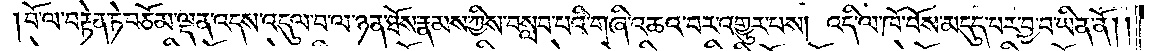བོ་ལ་བརྟེན་ཏེ་བཅོམ་ལྡན་འདས་འདུལ་བ་ལ་ཉན་ཐོས་རྣམས་ཀྱིས་བསླབ་པའི་གཞི་འཆའ་བར་འགྱུར་བས། འདི་ལ་ཁོ་བོས་མདུད་པར་བྱ་བ་ཡིན་ནོ། །
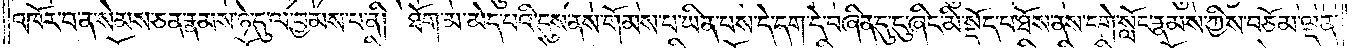འཁོར་བ་ན་སེམས་ཅན་རྣམས་ཉེ་དུ་ལ་བྱམས་པ་ནི། ཐོག་མ་མེད་པའི་དུས་ནས་གོམས་པ་ཡིན་པས་དེ་དག་དེ་བཞིན་དུ་ངུ་ཞིང་མི་སྡོད་པ་ཐོས་ནས་དགེ་སློང་རྣམས་ཀྱིས་བཅོམ་ལྡན་
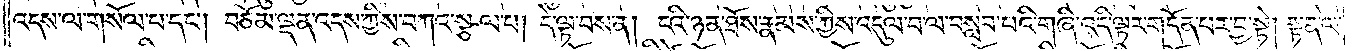འདས་ལ་གསོལ་བ་དང༌། བཅོམ་ལྡན་འདས་ཀྱིས་བཀའ་སྩལ་པ། དེ་ལྟ་བས་ན། ངའི་ཉན་ཐོས་རྣམས་ཀྱིས་འདུལ་བ་ལ་བསླབ་པའི་གཞི་འདི་ལྟར་གདོན་པར་བྱ་སྟེ། སྟན་ལ་
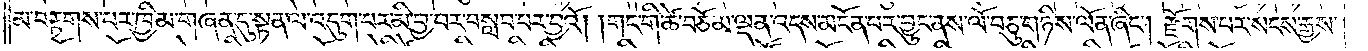མ་བརྟགས་པར་ཁྱིམ་གཞན་དུ་སྟན་ལ་འདུག་པར་མི་བྱ་བར་བསླབ་པར་བྱའོ། །གང་གི་ཚེ་བཅོམ་ལྡན་འདས་མངོན་པར་བྱུང་ནས་ལོ་བཅུ་གཉིས་ལོན་ཞིང༌། རྫོགས་པར་སངས་རྒྱས་
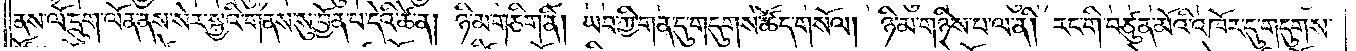ནས་ལོ་དྲུག་ལོན་ནས་སེར་སྐྱའི་གནས་སུ་བྱོན་པ་དེའི་ཚེ་ན། ཉི་མ་གཅིག་ནི། ཡབ་ཀྱི་གན་དུ་གདུགས་ཚོད་གསོལ། ཉི་མ་གཉིས་པ་ལ་ནི། རང་གི་བཙུན་མོའི་འཁོར་དུ་གདུགས་
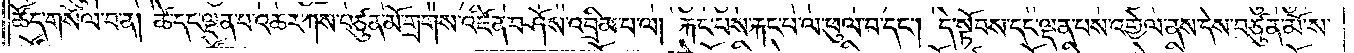ཚོད་གསོལ་བ་ན། ཚེ་དང་ལྡན་པ་འཆར་ཀས་བཙུན་མོ་གྲགས་འཛིན་བཤོས་འབྲིམ་པ་ལ། རྐང་པས་རྐང་པ་ལ་ཕུལ་བ་དང༌། དེ་སྟོབས་དང་ལྡན་པས་འགྱེལ་ནས་དེས་བཙུན་མོ་ས་
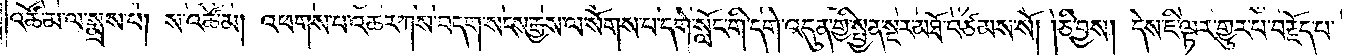འཚོམ་ལ་སྨྲས་པ། ས་འཚོ་མ་། འཕགས་པ་འཆར་ཀས་བདག་སངས་རྒྱས་ལ་སོགས་པ་དགེ་སློང་གི་དགེ་འདུན་གྱི་སྤྱན་སྔར་མཐོ་བཙམས་སོ། །ཅི་བྱས། དེས་ཇི་ལྟར་གྱུར་པ་བརྗོད་པ་
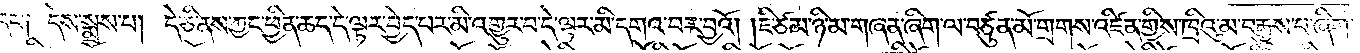དང༌། དེས་སྨྲས་པ། དེ་ཅི་ནས་ཀྱང་ཕྱིན་ཆད་དེ་ལྟར་བྱེད་པར་མི་འགྱུར་བ་དེ་ལྟར་མི་དགའ་བར་བྱའོ། །ཇི་ཙམ་ཉི་མ་གཞན་ཞིག་ལ་བཙུན་མོ་གྲགས་འཛིན་གྱིས་ཁྲིའུ་མ་བརྒྱུས་པ་ཞིག་
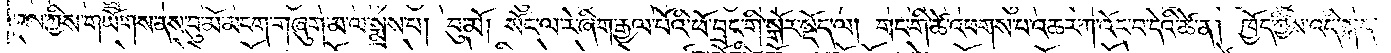རས་ཀྱིས་གཡོགས་ནས་བུ་མོ་མངག་གཞུག་མ་ལ་སྨྲས་པ། བུ་མོ། སོང་ལ་རེ་ཞིག་རྒྱལ་པོའི་ཕོ་གྲང་གི་སྒོར་སྡོད་ལ། གང་གི་ཚེ་འཕགས་པ་འཆར་ཀ་འོང་བ་དེའི་ཚེ་ན། ཁྱོད་ཀྱིས་འདི་སྐད་
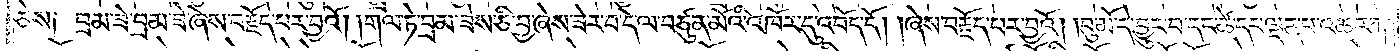ཅེས༑ བྲམ་ཟེ་བྲམ་ཟེ་ཞེས་བརྗོད་པར་བྱའོ། །གལ་ཏེ་བྲམ་ཟེས་ཅི་བྱ་ཞེས་ཟེར་བ་དེ་ལ་བཙུན་མོའི་འཁོར་དུ་འབོད་དོ། །ཞེས་བརྗོད་པར་བྱའོ། །བུ་མོ་དེ་བྱུང་བ་དང་ཚེ་དག་ལྡན་པ་འཆར་ཀ་
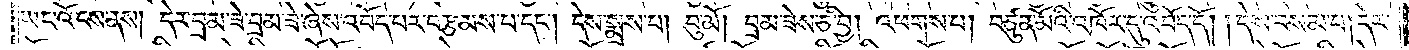ཡང་འོངས་ནས། དེར་བྲམ་ཟེར་བྲམ་ཟེ་ཞེས་འབོད་པར་བརྩམས་པ་དང༌། དེས་སྨྲས་པ། བུ་མོ། བྲམ་ཟེས་ཅི་བྱ། འཕགས་པ། བཙུན་མོའི་འཁོར་དུ་འབོད་དོ། །དེས་བསམ་པ། དེར་
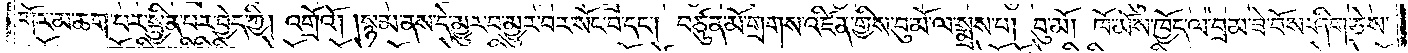གོར་མ་ཆག་པར་སྦྱིན་པར་བྱེད་ཀྱི། འགྲོའོ། །སྙམ་ནས་དེར་མྱུར་བ་མྱུར་བར་སོང་བ་དང༌། བཙུན་མོ་གྲགས་འཛིན་གྱིས་བུ་མོ་ལ་སྨྲས་པ། བུ་མོ། ཁོ་མོས་ཁྱོད་ལ་བྲམ་ཟེ་བོས་ཤིག་ཅེས་
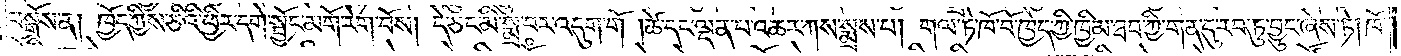བསྒོས་ན། ཁྱོད་ཀྱིས་ཅིའི་ཕྱིར་དགེ་སྦྱོང་མགོ་རེག་བོས། དེ་ཅང་མི་སྨྲ་བར་འདུག་གོ །ཚེ་དང་ལྡན་པ་འཆར་ཀས་སྨྲས་པ། གལ་ཏེ་ཁོ་བོ་ཁྱོད་ཀྱི་ཁྱིམ་ཐབ་ཀྱི་གན་དུ་རབ་ཏུ་བྱུང་ཞེས་ཏེ། ཁོ་
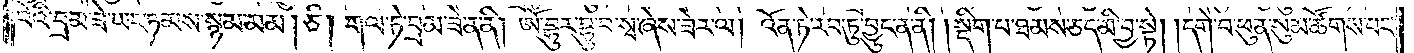བོའི་བྲམ་ཟེ་ཡང་ཉམས་སྙམ་མམ། ཅི། གལ་ཏེ་བྲམ་ཟེ་ན་ནི། ཨོཾ་བྷུ་ར་བྷུ་བ་སྭ་ཞེས་ཟེར་ལ། འོན་ཏེ་རབ་ཏུ་བྱུང་ན་ནི། །སྡིག་པ་ཐམས་ཅད་མི་བྱ་སྟེ། །དགེ་བ་ཕུན་སུམ་ཚོགས་པར་
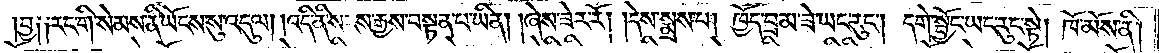བྱ༑ ༑རང་གི་སེམས་ནི་ཡོངས་སུ་འདུལ། །འདི་ནི་སངས་རྒྱས་བསྟན་པ་ཡིན། །ཞེས་ཟེར་རོ། །དེས་སྨྲས་པ། ཁྱོད་བྲམ་ཟེ་ཡང་རུང༌། དགེ་སྦྱོང་ཡང་རུང་སྟེ། ཁོ་མོས་ནི།
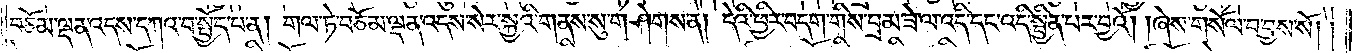བཅོམ་ལྡན་འདས་དཀའ་བ་སྤྱོད་པ་ན། གལ་ཏེ་བཅོམ་ལྡན་འདས་སེར་སྐྱའི་གནས་སུ་གཤེགས་ན། དེའི་ཕྱིར་བདག་གིས་བྲམ་ཟེ་ལ་འདི་དང་འདི་སྦྱིན་པར་བྱའོ། །ཞེས་གསོལ་བ་བྱས་སོ། །
